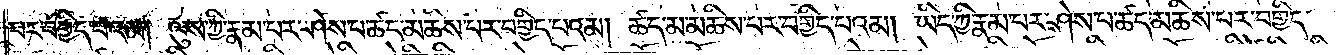པར་བགྱིད་པའམ། ལུས་ཀྱི་རྣམ་པར་ཤེས་པ་ཚད་མཆིས་པར་བགྱིད་པའམ། ཚད་མ་མཆིས་པར་བགྱིད་པའམ། ཡིད་ཀྱི་རྣམ་པར་ཤེས་པ་ཚད་མཆིས་པར་བགྱིད་
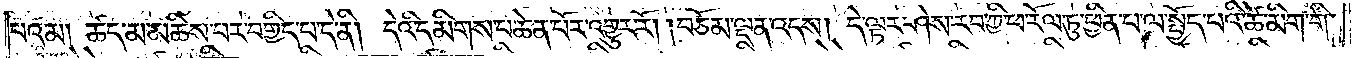པའམ། ཚད་མ་མཆིས་པར་བགྱིད་པ་དེ་ནི། དེའི་དམིགས་པ་ཆེན་པོར་འགྱུར་རོ། །བཅོམ་ལྡན་འདས། དེ་ལྟར་ཤེས་རབ་ཀྱི་ཕ་རོལ་ཏུ་ཕྱིན་པ་ལ་སྤྱོད་པའི་ཚེ་མིག་གི་
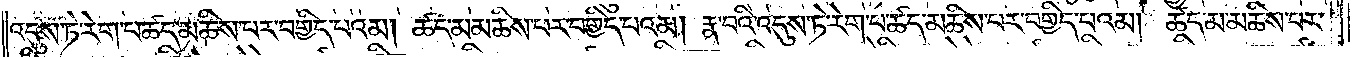འདུས་ཏེ་རེག་པ་ཚད་མཆིས་པར་བགྱིད་པའམ། ཚད་མ་མཆིས་པ་བགྱིད་པའམ། རྣ་བའི་འདུས་ཏེ་རེག་པ་ཚད་མཆིས་པར་བགྱིད་པའམ། ཚད་མ་མཆིས་པར་
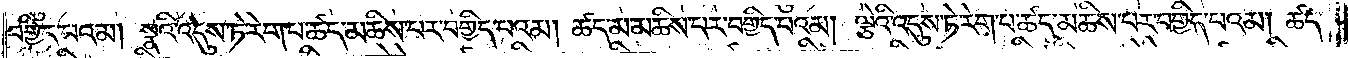བགྱིད་པའམ། སྣའི་འདུས་ཏེ་རེག་པ་ཚད་མཆིས་པར་བགྱིད་པའམ། ཚད་མ་མཆིས་པར་བགྱིད་པའམ། ལྕེའི་འདུས་ཏེ་རེག་པ་ཚད་མཆིས་པར་བགྱིད་པའམ། ཚད་
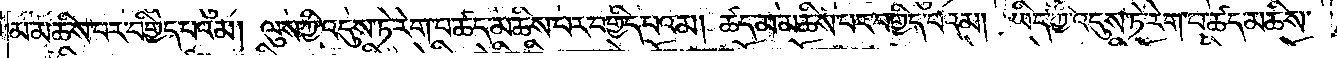མ་མཆིས་པར་བགྱིད་པའམ། ལུས་ཀྱི་འདུས་ཏེ་རེག་པ་ཚད་མཆིས་པར་བགྱིད་པའམ། ཚད་མ་མཆིས་པར་བགྱིད་པའམ། ཡིད་ཀྱི་འདུས་ཏེ་རེག་པ་ཚད་མཆིས་
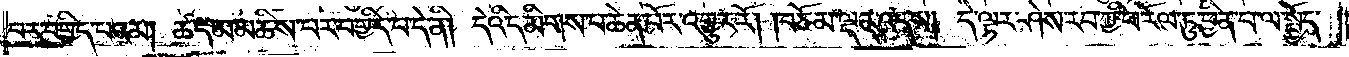པར་བགྱིད་པའམ། ཚད་མ་མཆིས་པར་བགྱིད་པ་དེ་ནི། དེའི་དམིགས་པ་ཆེན་པོར་འགྱུར་རོ། །བཅོམ་ལྡན་འདས། དེ་ལྟར་ཤེས་རབ་ཀྱི་ཕ་རོལ་ཏུ་ཕྱིན་པ་ལ་སྤྱོད་
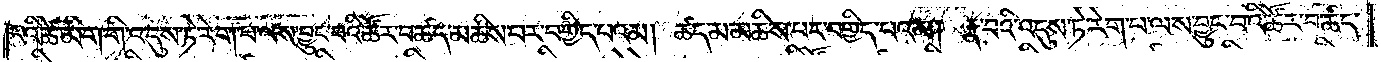པའི་ཚེ་མིག་གི་འདུས་ཏེ་རེག་པ་ལས་བྱུང་བའི་ཚོར་བ་ཚད་མཆིས་པར་བགྱིད་པའམ། ཚད་མ་མཆིས་པར་བགྱིད་པའམ། རྣ་བའི་འདུས་ཏེ་རེག་པ་ལས་བྱུང་བའི་ཚོར་བ་ཚད་
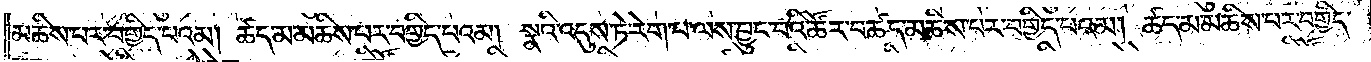མཆིས་པར་བགྱིད་པའམ། ཚད་མ་མཆིས་པར་བགྱིད་པའམ། སྣའི་འདུས་ཏེ་རེག་པ་ལས་བྱུང་བའི་ཚོར་བ་ཚད་མཆིས་པར་བགྱིད་པའམ། ཚད་མ་མཆིས་པར་བགྱིད་
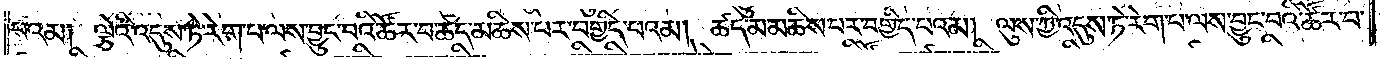པའམ༑ ལྕེའི་འདུས་ཏེ་རེག་པ་ལས་བྱུང་བའི་ཚོར་བ་ཚད་མཆིས་པར་བགྱིད་པའམ། ཚད་མ་མཆིས་པར་བགྱིད་པའམ། ལུས་ཀྱི་འདུས་ཏེ་རེག་པ་ལས་བྱུང་བའི་ཚོར་བ་
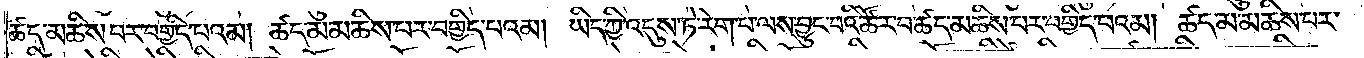ཚད་མཆིས་པར་བགྱིད་པའམ། ཚད་མ་མཆིས་པར་བགྱིད་པའམ། ཡིད་ཀྱི་འདུས་ཏེ་རེག་པ་ལས་བྱུང་བའི་ཚོར་བ་ཚད་མཆིས་པར་བགྱིད་པའམ། ཚད་མ་མཆིས་པར་
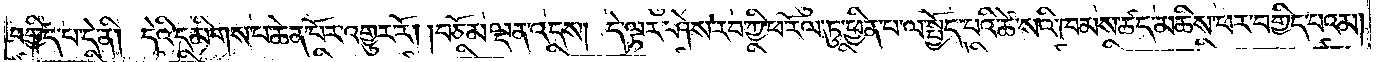བགྱིད་པ་དེ་ནི། དེའི་དམིགས་པ་ཆེན་པོར་འགྱུར་རོ། །བཅོམ་ལྡན་འདས། དེ་ལྟར་ཤེས་རབ་ཀྱི་ཕ་རོལ་ཏུ་ཕྱིན་པ་ལ་སྤྱོད་པའི་ཚེ་སའི་ཁམས་ཚད་མཆིས་པར་བགྱིད་པའམ།
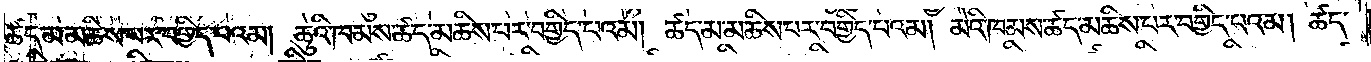ཚད་མ་མཆིས་པར་བགྱིད་པའམ། ཆུའི་ཁམས་ཚད་མཆིས་པར་བགྱིད་པའམ། ཚད་མ་མཆིས་པར་བགྱིད་པའམ། མེའི་ཁམས་ཚད་མཆིས་པར་བགྱིད་པའམ། ཚད་
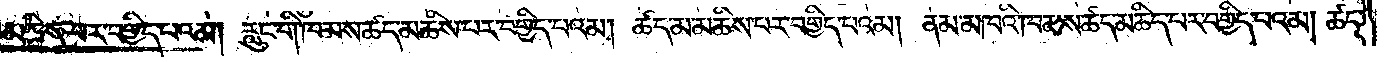མཆིས་པར་བགྱིད་པའམ། རླུང་གི་ཁམས་ཚད་མཆིས་པར་བགྱིད་པའམ། ཚད་མ་མཆིས་པར་བགྱིད་པའམ། ནམ་མཁའི་ཁམས་ཚད་མཆིས་པར་བགྱིད་པའམ། ཚད་
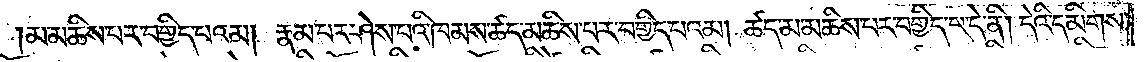མ་མཆིས་པར་བགྱིད་པའམ། རྣམ་པར་ཤེས་པའི་ཁམས་ཚད་མཆིས་པར་བགྱིད་པའམ། ཚད་མ་མཆིས་པར་བགྱིད་པ་དེ་ནི། དེའི་དམིགས་
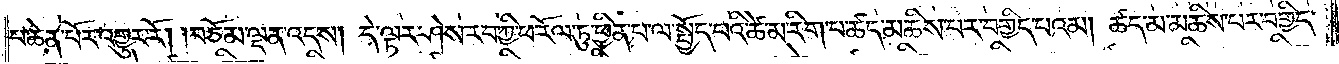པ་ཆེན་པོར་འགྱུར་རོ། །བཅོམ་ལྡན་འདས། དེ་ལྟར་ཤེས་རབ་ཀྱི་ཕ་རོལ་ཏུ་ཕྱིན་པ་ལ་སྤྱོད་པའི་ཚེ་མ་རིག་པ་ཚད་མཆིས་པར་བགྱིད་པའམ། ཚད་མ་མཆིས་པར་བགྱིད་
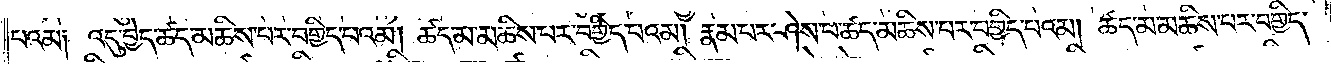པའམ༑ འདུ་བྱེད་ཚད་མཆིས་པར་བགྱིད་པའམ། ཚད་མ་མཆིས་པར་བགྱིད་པའམ། རྣམ་པར་ཤེས་པ་ཚད་མཆིས་པར་བགྱིད་པའམ། ཚད་མ་མཆིས་པར་བགྱིད་
